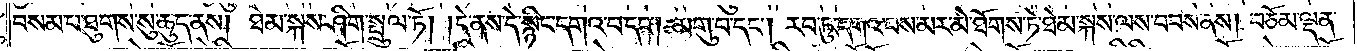བསམ་པ་ཐུགས་སུ་ཆུད་ནས། ཐེམ་སྐས་ཤིག་སྤྲུལ་ཏོ། །དེ་ནས་དེ་སྙིང་དགའ་བ་དང༌། མགུ་བ་དང༌། རབ་ཏུ་དགའ་བས་མར་མེ་ཐོགས་ཏེ་ཐེམ་སྐས་ལས་བབས་ནས། བཅོམ་ལྡན་
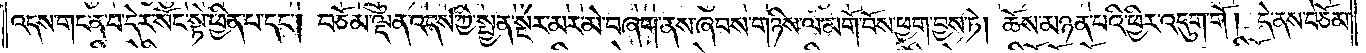འདས་གང་ན་བ་དེར་སོང་སྟེ་ཕྱིན་པ་དང༌། བཅོམ་ལྡན་འདས་ཀྱི་སྤྱན་སྔར་མར་མེ་བཞག་ནས་ཞབས་གཉིས་ལ་མགོ་བོས་ཕྱག་བྱས་ཏེ། ཆོས་མཉན་པའི་ཕྱིར་འདུག་གོ །དེ་ནས་བཅོམ་
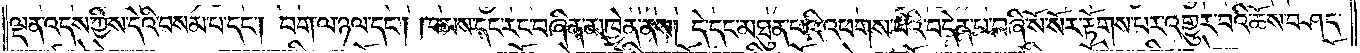ལྡན་འདས་ཀྱིས་དེའི་བསམ་པ་དང༌། བག་ལ་ཉལ་དང༌། ཁམས་དང་རང་བཞིན་མཁྱེན་ནས། དེ་དང་མཐུན་པའི་འཕགས་པའི་བདེན་པ་བཞི་སོ་སོར་རྟོགས་པར་འགྱུར་བའི་ཆོས་བཤད་
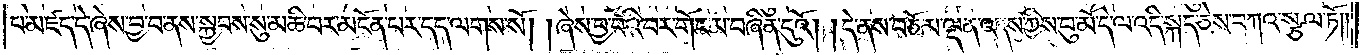པ་མཛད་དེ་ཞེས་བྱ་བ་ནས་སྐྱབས་སུ་མཆི་བར་མངོན་པར་དད་ལགས་སོ། །ཞེས་བྱ་བའི་བར་གོང་མ་བཞིན་དུའོ། །དེ་ནས་བཅོམ་ལྡན་འདས་ཀྱིས་བུ་མོ་དེ་ལ་འདི་སྐད་ཅེས་བཀའ་སྩལ་ཏོ༎
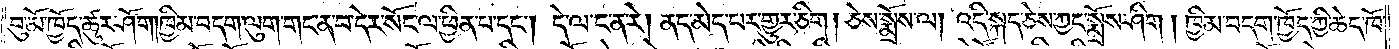བུ་མོ་ཁྱོད་ཚུར་ཤོག །ཁྱིམ་བདག་ལུག་གང་ན་བ་དེར་སོང་ལ་ཕྱིན་པ་དང༌། དེ་ལ་ང་ན་རེ། ནད་མེད་པར་གྱུར་ཅིག །ཅེས་སྨྲོས་ལ། འདི་སྐད་ཅེས་ཀྱང་སྨྲོས་ཤིག །ཁྱིམ་བདག་ཁྱོད་ཀྱི་ཆེད་ཁོ་
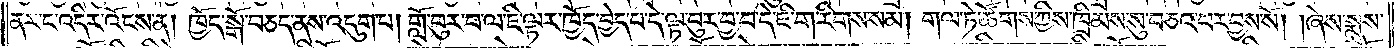ནར་ང་འདིར་འོངས་ན། ཁྱོད་སྒོ་བཅད་ནས་འདུག་པ། གློ་བུར་བ་ལ་ཇི་ལྟར་ཁྱོད་བྱེད་པ་དེ་ལྟ་བུར་བྱ་བ་དེ་ཇི་ག་རིགས་སམ། གལ་ཏེ་ཚོགས་ཀྱིས་ཁྲིམས་སུ་བཅའ་བར་བྱས་སོ། །ཞེས་སྨྲས་
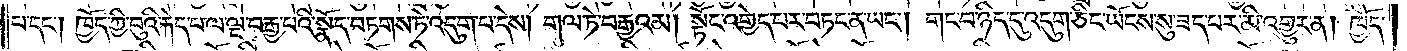པ་དང༌། ཁྱོད་ཀྱི་བུའི་རྐེད་པ་ལ་ལྔ་བརྒྱ་པའི་སྣོད་བཏགས་ཏེ་འདུག་པ་དེས། གལ་ཏེ་བརྒྱའམ། སྟོང་འགྱེད་པར་བཏང་ན་ཡང༌། གང་བ་ཉིད་དུ་འདུག་ཅིང་ཡོངས་སུ་ཟད་པར་མི་འགྱུར་ན། ཁྱོད་
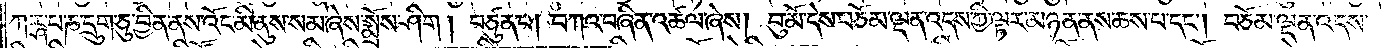ཀཪྴ་པ་ཎ་དྲུག་ཅུ་བྱིན་ནས་འོང་མི་ནུས་སམ་ཞེས་སྨྲོས་ཤིག །བཙུན་པ། བཀའ་བཞིན་འཚལ་ཞེས། བུ་མོ་དེས་བཅོམ་ལྡན་འདས་ཀྱི་ལྟར་མཉན་ནས་ཆས་པ་དང༌། བཅོམ་ལྡན་འདས་
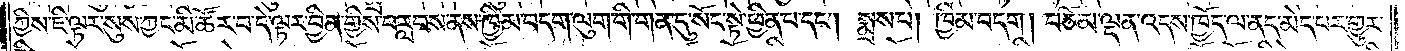ཀྱིས་ཇི་ལྟར་སུས་ཀྱང་མི་ཚོར་བ་དེ་ལྟར་བྱིན་གྱིས་བརླབས་ནས་ཁྱིམ་བདག་ལུག་གི་གན་དུ་སོང་སྟེ་ཕྱིན་པ་དང༌། སྨྲས་པ། ཁྱིམ་བདག །བཅོམ་ལྡན་འདས་ཁྱོད་ལ་ནད་མེད་པར་གྱུར་
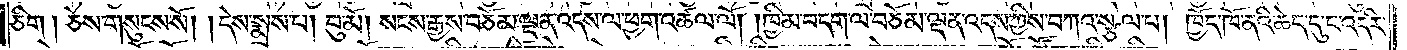ཅིག །ཅེས་གསུངས་སོ། །དེས་སྨྲས་པ། བུ་མོ། སངས་རྒྱས་བཅོམ་ལྡན་འདས་ལ་ཕྱག་འཚལ་ལོ། །ཁྱིམ་བདག་ལ་བཅོམ་ལྡན་འདས་ཀྱིས་བཀའ་སྩལ་པ། ཁྱོད་ཁོ་ནའི་ཆེད་དུ་ང་འདིར་
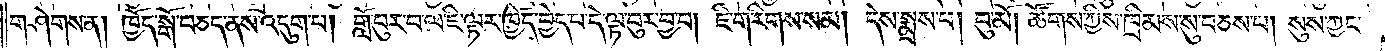གཤེགས་ན། ཁྱོད་སྒོ་བཅད་ནས་འདུག་པ། གློ་བུར་བ་ལ་ཇི་ལྟར་ཁྱོད་བྱེད་པ་དེ་ལྟ་བུར་བྱ་བ། ཇི་ག་རིགས་སམ། དེས་སྨྲས་པ། བུ་མོ། ཚོགས་ཀྱིས་ཁྲིམས་སུ་བཅས་པ། སུས་ཀྱང་
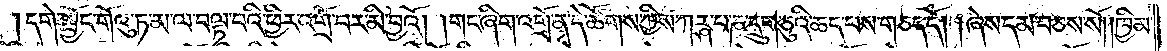དགེ་སྦྱོང་གོའུ་ཏ་མ་ལ་བལྟ་བའི་ཕྱིར་འགྲོ་བར་མི་བྱའོ། །གང་ཞིག་འགྲོ་ན་དེ་ཚོགས་ཀྱིས་ཀརྴ་པ་ཎ་དྲུག་ཅུའི་ཆད་པས་གཅད་དོ། །ཞེས་དམ་བཅས་སོ། །ཁྱིམ་
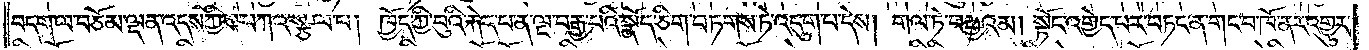བདག་ལ་བཅོམ་ལྡན་འདས་ཀྱིས་བཀའ་སྩལ་པ། ཁྱོད་ཀྱི་བུའི་རྐེད་པ་ན་ལྔ་བརྒྱ་པའི་སྣོད་ཅིག་བཏགས་ཏེ་འདུག་པ་དེས། གལ་ཏེ་བརྒྱའམ། སྟོང་འགྱེད་པར་བཏང་ན་གང་བ་ཁོ་ནར་འགྱུར་
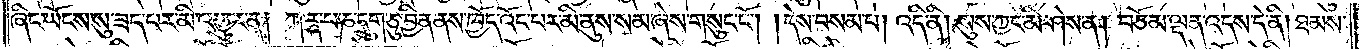ཞིང་ཡོངས་སུ་ཟད་པར་མི་འགྱུར་ན། ཀརྴ་པ་ཎ་དྲུག་ཅུ་བྱིན་ནས་ཁྱོད་འོང་པར་མི་ནུས་སམ་ཞེས་གསུང་ངོ༌། །དེས་བསམ་པ། འདི་ནི། སུས་ཀྱང་མི་ཤེས་ན། བཅོམ་ལྡན་འདས་དེ་ནི། ཐམས་
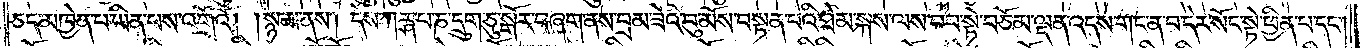ཅད་མཁྱེན་པ་ཡིན་པས་འགྲོའོ། །སྙམ་ནས། དེས་ཀརྴ་པ་ཎ་དྲུག་ཅུ་སྒོར་བཞག་ནས་བྲམ་ཟེའི་བུ་མོས་བསྟན་པའི་ཐེམ་སྐས་ལས་བབ་སྟེ་བཅོམ་ལྡན་འདས་གང་ན་བ་དེར་སོང་སྟེ་ཕྱིན་པ་དང༌།
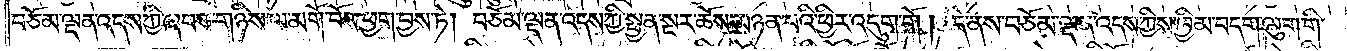བཅོམ་ལྡན་འདས་ཀྱི་ཞབས་གཉིས་ལ་མགོ་བོས་ཕྱག་བྱས་ཏེ། བཅོམ་ལྡན་འདས་ཀྱི་སྤྱན་སྔར་ཆོས་མཉན་པའི་ཕྱིར་འདུག་གོ །དེ་ནས་བཅོམ་ལྡན་འདས་ཀྱིས་ཁྱིམ་བདག་ལུག་གི་
